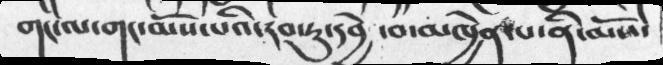གང་ལ་གང་མོས་པའི་རབ་ཏུ་དབྱེ ་བ་མཁྱེན་པ་ནི་མོས་
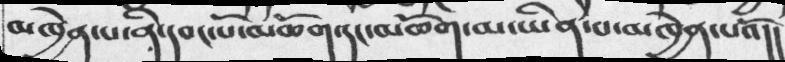མཁྱེན་པ་ནི་དབང་པོ་མཆོག་དང་མཆོག་མ་ཡིན་པ་མཁྱེན་པའོ།།
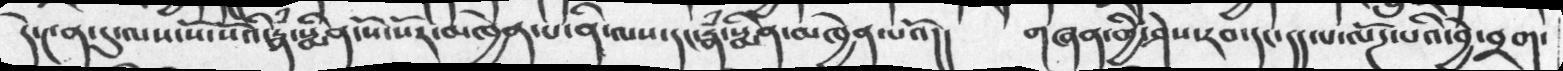དེ་༤ན་དུ་ལས་སོ་སོའི་རྣཾ་སྨིན་སོ་སོར་མཁྱེན་པ་ནི་ལས་དང་རྣཾ་སྨིན་མཁྱེན་པའོ།།   གཞན་གྱི་ཤེས་རབ་དང་དད་པ་ལོཌ་པའི་བྱེ་བྲག་
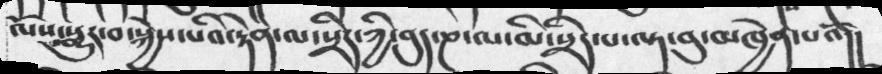ལོས་སྨྱུར་བ་སྐྱེས་པའི་རྟེན་ལ་སྲིད་ཀྱི་ནུད་ཎ་ལ་མི་སྲིད་པ་ལྟ་བུ་མཁྱེན་པའོ།།
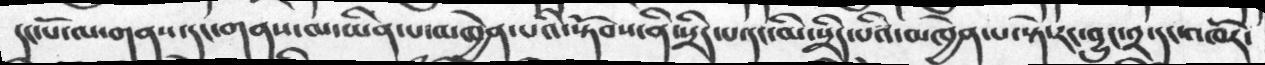དང་པོ་ལ་གནས་དང་གནས་མ་ཡིན་པ་མཁྱེན་པའི་སྟོབས་ནི་སྲིད་པ་དང་མི་སྲིད་པའི་མཁྱེན་པ་སྟེ་རང་བྱུང་༢་དང་འཁོར་
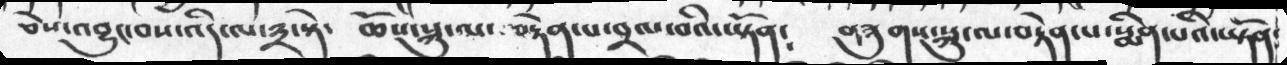ཅེས་འབྱུང་བས་འདི་ལ་༣་སྟེ་    ཆོས་སྐུ་ལ་ བརྟེན་པ་བྲལ་བའི་ཡྟོན༴        གཟུགས་སྐུ་ལ་བརྟེན་པ་སྨིན་པའི་ཡྟོན་
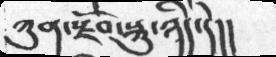ཀུན་སྫོབ་སྐུ་ཉིད་དེ།།
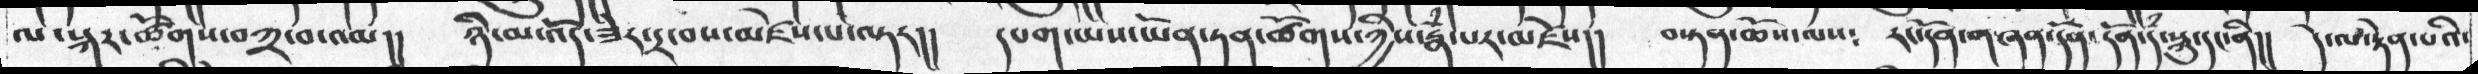ལ་སྐར་ཚོགས་བཀྲ་བ་འམ།།   ཉི་མ་འོད་ཟེར་དྲ་བས་མཛེས་པ་ལྟར།།   དཔག་ཡས་ཡོན་ཏན་ཚོགས་ཀྱིས་རྣཾ་པར་མཛེས།།   བསྟན་ཆོས་ལས༴   རང་དོན་གཞན་དོན་དོན་ད་ཾསྐུ་དང་ནི།།   དེ་ལ་རྟེན་པའི་
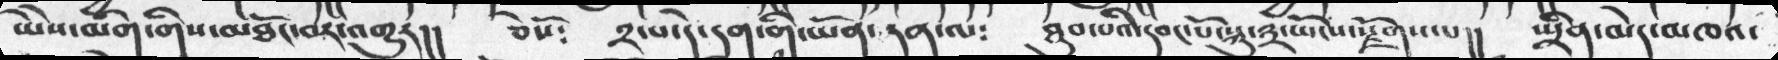ཡེེས་མིག་གིས་མཐོང་བར་འགྱུར།།   ཅེསོ༴  ༢་པ་དེ་དག་གི་ཡོན་ཏན་ལ༴  ཐུབ་པའི་དབང་པོ་སྐུ་༣་ཡོངས་སྫོགས་པ།།   སྤྲིན་མེད་མཁའ་
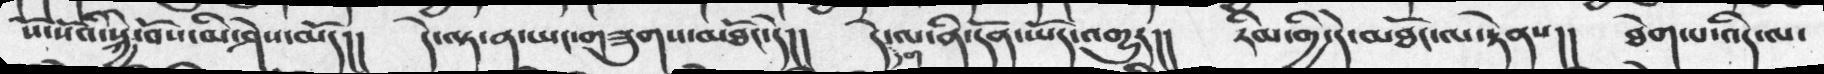སོ་སོའི་སྐྱེ་བོས་མ་ཤེས་མདོ།།   དེ་ལྟ་ན་ཡང་གཟུགས་མཐོང་དེ།།  དེ་དག་ལ་ནི་དོན་ཡོད་འགྱུར།།  རིམ་གྱི་དེ་མཐོང་ལ་རྟེནས།།  ཐེག་པ་འདི་ལ་
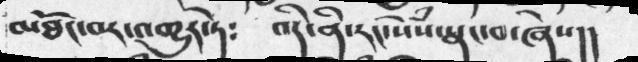མཐོང་བར་འགྱུར་ཏེ༴    འདི་ནི་རང་སེཾས་སྣང་བ་ཞེས།།
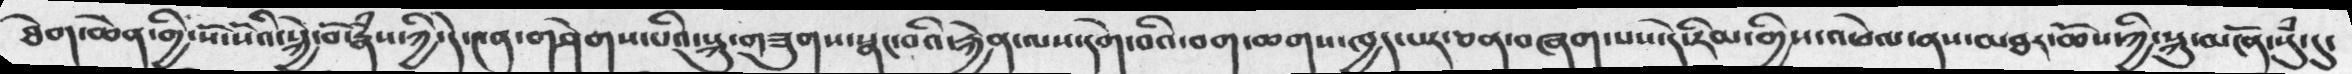ཐེག་ཆེན་གྱི་སོ་སོའི་སྐྱེ་བོ་རྣཾས་ཀྱི་དེ་༤ན་གཤེགས་པའི་སྐུ་གཟུགས་སྣང་བའི་རྐྱེན་ལས་དགེ་བའི་བག་ཆགས་ཁྱད་པར་ཅན་བཞག་པས་དེ་རིམ་གྱིས་འཕེལ་ནས་མཐར་ཆོས་ཀྱི་སྐུ་མངོན་སུཾ་དུ་
